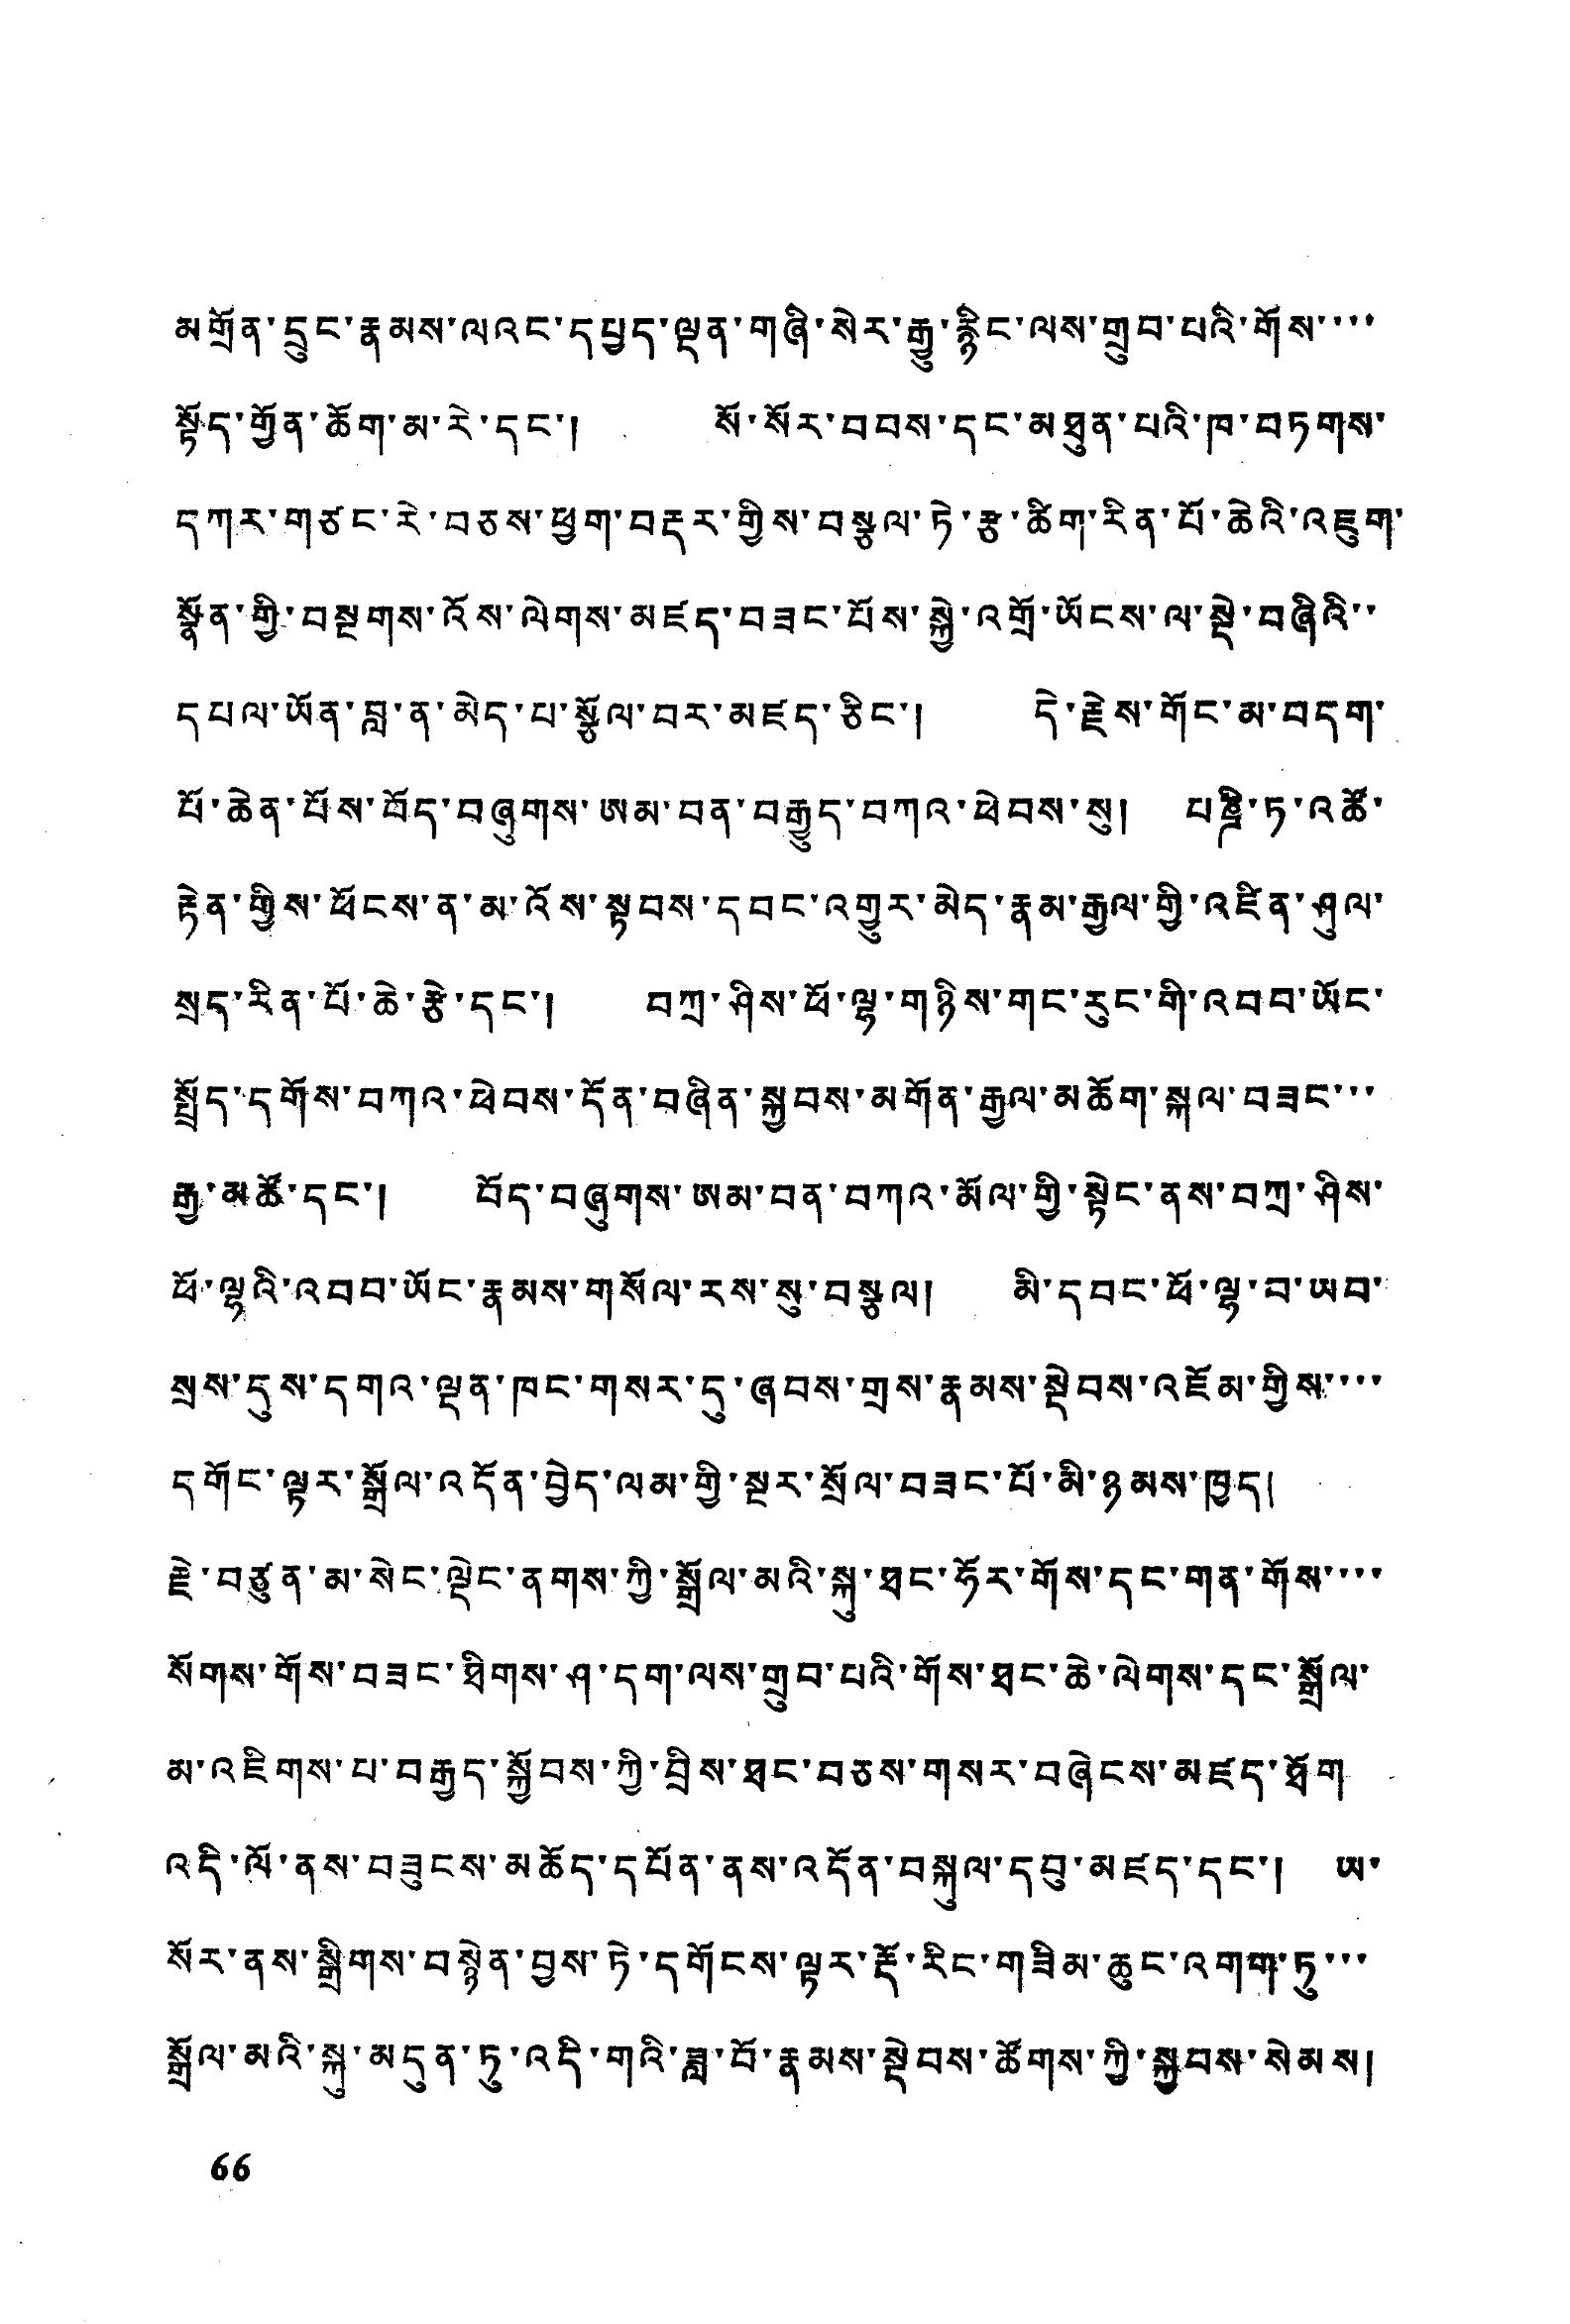མགྲོན་དྲུང་རྣམས་ལའང་དཔྱད་ལྡན་གཞི་སེར་རྒྱུ་རྙིང་ལས་གྲུབ་པའི་གོས་་་་
སྟོད་གྱོན་ཆོག་མ་རེ་དང་། སོ་སོར་བབས་དང་མཐུན་པའི་ཁ་བཏགས་
དཀར་གཙང་རེ་བཅས་ཕྱག་བརྡར་གྱིས་བསྩལ་ཏེ་རྩ་ཚིག་རིན་པོ་ཆེའི་འཇུག་
སྣོན་གྱི་བསྔགས་འོས་ལེགས་མཛད་བཟང་པོས་སྐྱེ་འགྲོ་ཡོངས་ལ་སྡེ་བཞིའི་་
དཔལ་ཡོན་བླ་ན་མེད་པ་སྩོལ་བར་མཛད་ཅིང་། དེ་རྗེས་གོང་མ་བདག་
པོ་ཆེན་པོས་བོད་བཞུགས་ཨམ་བན་བརྒྱུད་བཀའ་ཕེབས་སུ། པཎྜི་ཏ་འཚོ་
རྟེན་གྱིས་ཕོངས་ན་མ་འོས་སྟབས་དབང་འགྱུར་མེད་རྣམ་རྒྱལ་གྱི་འཛིན་ཤུལ་
སྲད་རིན་པོ་ཆེ་རྩེ་དང་། བཀྲ་ཤིས་ཕོ་ལྷ་གཉིས་གང་རུང་གི་འབབ་ཡོང་
སྤྲོད་དགོས་བཀའ་ཕེབས་དོན་བཞིན་སྐྱབས་མགོན་རྒྱལ་མཆོག་སྐལ་བཟང་་་
རྒྱ་མཚོ་དང་། བོད་བཞུགས་ཨམ་བན་བཀའ་མོལ་གྱི་སྟེང་ནས་བཀྲ་ཤིས་
ཕོ་ལྷའི་འབབ་ཡོང་རྣམས་གསོལ་རས་སུ་བསྩལ། མི་དབང་ཕོ་ལྷ་བ་ཡབ་
སྲས་དུས་དགའ་ལྡན་ཁང་གསར་དུ་ཞབས་གྲས་རྣམས་སྡེབས་འཛོམ་གྱིས་་་་
དགོང་ལྟར་སྒྲོལ་འདོན་བྱེད་ལམ་གྱི་སྔར་སྲོལ་བཟང་པོ་མི་ཉམས་ཁྱད།
རྗེ་བཙུན་མ་སེང་ལྡེང་ནགས་ཀྱི་སྒྲོལ་མའི་སྐུ་ཐང་ཧོར་གོས་དང་གན་གོས་་་་
སོགས་གོས་བཟང་ཐིགས་ཤ་དག་ལས་གྲུབ་པའི་གོས་ཐང་ཆེ་ལེགས་དང་སྒྲོལ་
མ་འཇིགས་པ་བརྒྱད་སྐྱོབས་ཀྱི་བྲིས་ཐང་བཅས་གསར་བཞེངས་མཛད་ཐོག
འདི་ལོ་ནས་བཟུངས་མཆོད་དཔོན་ནས་འདོན་བསྐུལ་དབུ་མཛད་དང་། ཡ་
སོར་ནས་སྒྲིགས་བསྙེན་བྱས་ཏེ་དགོངས་ལྟར་རྡོ་རིང་གཟིམ་ཆུང་འགག་ཏུ་་་
སྒྲོལ་མའི་སྐུ་མདུན་ཏུ་འདི་གའི་ཟླ་བོ་རྣམས་སྡེབས་ཚོགས་ཀྱི་སྐྱབས་སེམས།
66
